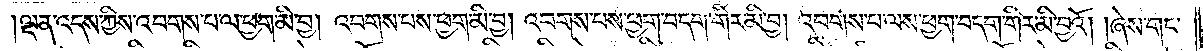ལྡན་འདས་ཀྱིས་འབགས་པ་ལ་ཕྱག་མི་བྱ། འབགས་པས་ཕྱག་མི་བྱ། འབགས་པས་ཕྱག་བདག་གིར་མི་བྱ། འབགས་པ་ལས་ཕྱག་བདག་གིར་མི་བྱའོ། །ཞེས་གང་
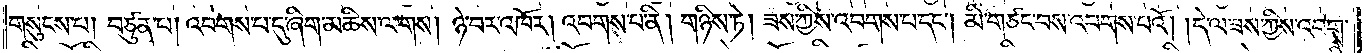གསུངས་པ། བཙུན་པ། འབགས་པ་དུ་ཞིག་མཆིས་ལགས། ཉེ་བར་འཁོར། འབགས་པ་ནི། གཉིས་ཏེ། ཟས་ཀྱིས་འབགས་པ་དང༌། མི་གཙང་བས་འཕགས་པའོ། །དེ་ལ་ཟས་ཀྱིས་འབགས་
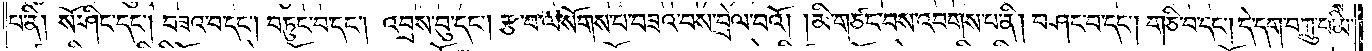པ་ནི། སོ་ཤིང་དང༌། བཟའ་བ་དང༌། བཏུང་བ་དང༌། འབྲས་བུ་དང༌། རྩབ་ལ་སོགས་པ་བཟའ་བས་བྲེལ་བའོ། །མི་གཙང་བས་འབགས་པ་ནི། བཤང་བ་དང༌། གཅི་བ་དང༌། དེ་དག་བཀྲུ་བ་མི་
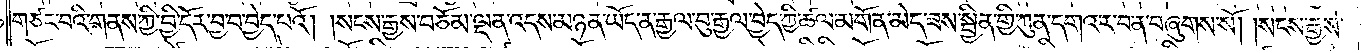གཙང་བའི་གནས་ཀྱི་བྱི་དོར་བྱ་བ་བྱེད་པའོ། །སངས་རྒྱས་བཅོམ་ལྡན་འདས་མཉན་ཡོད་ན་རྒྱལ་བུ་རྒྱལ་བྱེད་ཀྱི་ཚལ་མགོན་མེད་ཟས་སྦྱིན་གྱི་ཀུན་དགའ་ར་བ་ན་བཞུགས་སོ། །སངས་རྒྱས་
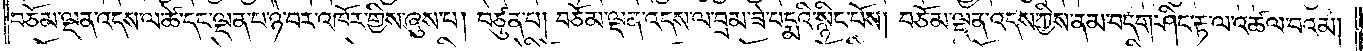བཅོམ་ལྡན་འདས་ལ་ཚེ་དང་ལྡན་པ་ཉེ་བར་འཁོར་གྱིས་ཞུས་པ། བཙུན་པ། བཅོམ་ལྡན་འདས་ལ་བྲམ་ཟེ་པདྨའི་སྙིང་པོས། བཅོམ་ལྡན་འདས་ཀྱིས་ནམ་བདག་ཤིང་རྟ་ལ་འཚལ་བའམ།
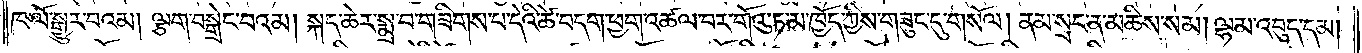ཁ་ལོ་སྒྱུར་བའམ། ལྕག་བསྒྲེང་བའམ། སྐད་ཆེར་སྨྲ་བ་གཟིགས་པ་དེའི་ཚེ་བདག་ཕྱག་འཚལ་བར་གོའུ་ཏ་མ་ཁྱོད་ཀྱིས་གཟུང་དུ་གསོལ། ནམ་སྲང་ན་མཆིས་སམ། ལྷམ་འབུད་དམ།
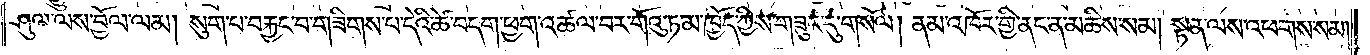ཤུལ་ལས་བྱོལ་ལམ། སུག་པ་བརྐྱང་བ་གཟིགས་པ་དེའི་ཚེ་བདག་ཕྱག་འཚལ་བར་གོའུ་ཏ་མ་ཁྱོད་ཀྱིས་གཟུང་དུ་གསོལ། ནམ་འཁོར་གྱི་ནང་ན་མཆིས་སམ། སྟན་ལས་འཕགས་སམ།
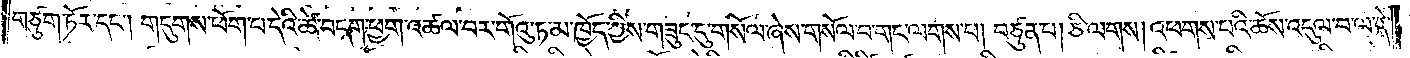གཙུག་ཏོར་དང༌། གདུགས་ཕོག་པ་དེའི་ཆེ་བདག་ཕྱག་འཚལ་བར་གོའུ་ཏ་མ་ཁྱོད་ཀྱིས་གཟུང་དུ་གསོལ་ཞེས་གསོལ་བ་གང་ལགས་པ། བཙུན་པ། ཅི་ལགས། འཕགས་པའི་ཆོས་འདུལ་བ་ལ་དེ་
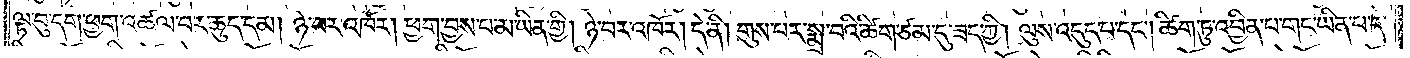ལྟ་བུ་དག་ཕྱག་འཚལ་བར་ཆུད་དམ། ཉེ་བར་འཁོར། ཕྱག་བྱས་པ་མ་ཡིན་གྱི། ཉེ་བར་འཁོར། དེ་ནི། གུས་པར་སྨྲ་བའི་ཚིག་ཙམ་དུ་ཟད་ཀྱི། ལུས་འདུད་པ་དང༌། ཚིག་ཏུ་འབྱིན་པ་གང་ཡིན་པ་དེ་
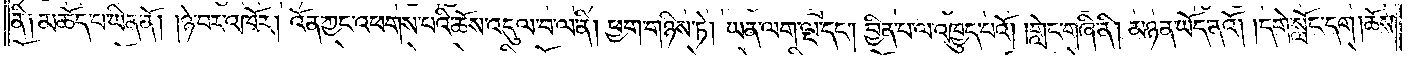ནི། མཆོད་པ་ཡིན་ནོ། །ཉེ་བར་འཁོར། འོན་ཀྱང་འཕགས་པའི་ཆོས་འདུལ་བ་ལ་ནི། ཕྱག་གཉིས་ཏེ། ཡན་ལག་ལྔ་དང༌། བྱིན་པ་ལ་འཁྱུད་པའོ། །གླེང་གཞི་ནི། མཉན་ཡོད་ནའོ། །དགེ་སློང་དག །ཆོས་
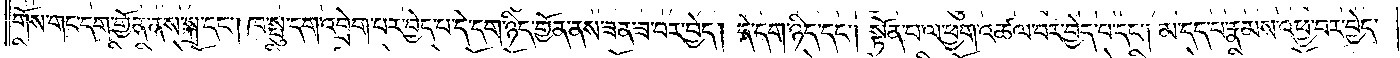གོས་གང་དག་གྱོན་ནས་སྐྲ་དང༌། ཁ་སྤུ་དག་འབྲེག་པར་བྱེད་པ་དེ་དག་ཉིད་གྱོན་ནས་ཟན་ཟ་བར་བྱེད། དེ་དག་ཉིད་དང༌། སྟོན་པ་ལ་ཕྱག་འཚལ་བར་བྱེད་པ་དང༌། མ་དད་པ་རྣམས་འཕྱ་བར་བྱེད་
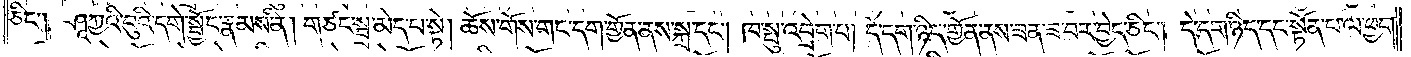ཅིང༌། ཤཱཀྱའི་བུའི་དགེ་སྦྱོང་རྣམས་ནི། གཙང་སྦྲ་མེད་པ་སྟེ། ཆོས་གོས་གང་དག་གྱོན་ནས་སྐྲ་དང༌། ཁ་སྤུ་འབྲེག་པ། དེ་དག་ཉིད་གྱོན་ནས་ཟན་ཟ་བར་བྱེད་ཅིང༌། དེ་དག་ཉིད་དང་སྟོན་པ་ལ་ཕྱག་
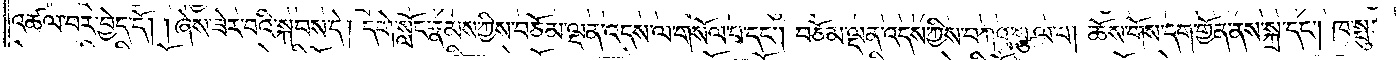འཚལ་བར་བྱེད་དོ། །ཞེས་ཟེར་བའི་སྐབས་དེ། དགེ་སློང་རྣམས་ཀྱིས་བཅོམ་ལྡན་འདས་ལ་གསོལ་བ་དང༌། བཅོམ་ལྡན་འདས་ཀྱིས་བཀའ་སྩལ་པ། ཆོས་གོས་དག་གྱོན་ནས་སྐྲ་དང༌། ཁ་སྤུ་
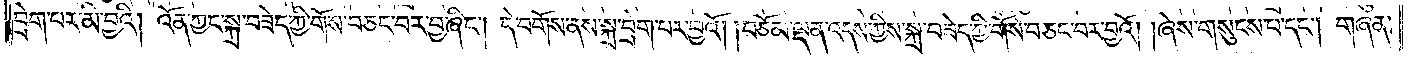བྲེག་པར་མི་བྱའི། འོན་ཀྱང་སྐྲ་བཟེད་ཀྱི་གོས་བཅང་བར་བྱ་ཞིང༌། དེ་བགོས་ནས་སྐྲ་བྲེག་པར་བྱའོ། །བཅོམ་ལྡན་འདས་ཀྱིས་སྐྲ་བཟེད་ཀྱི་གོས་བཅང་བར་བྱའོ། །ཞེས་གསུངས་པ་དང༌། གཞན་
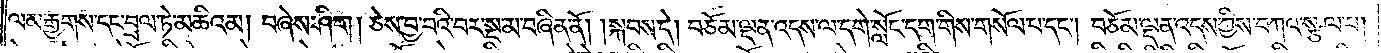ལམ་རྒྱགས་དང་བྲལ་ཏེ་མཆིའམ། བཞེས་ཤིག །ཅེས་བྱ་བའི་བར་སྔ་མ་བཞིན་ནོ། །སྐབས་དེ། བཅོམ་ལྡན་འདས་ལ་དགེ་སློང་དག་གིས་གསོལ་པ་དང༌། བཅོམ་ལྡན་འདས་ཀྱིས་བཀའ་སྩལ་པ།
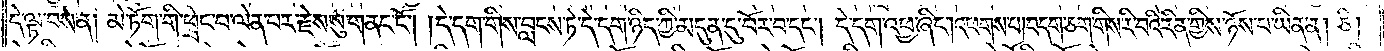དེ་ལྟ་བས་ན། མེ་ཏོག་གི་ཕྲེང་བ་ལེན་པར་རྗེས་སུ་གནང་ངོ༌། །དེ་དག་གིས་བླངས་ཏེ་དེ་དག་ཉིད་ཀྱི་མདུན་དུ་བོར་བ་དང༌། དེ་དག་འཕྱ་ཞིང༌། འཕགས་པ། བདག་ཅག་གིས་རི་བའི་རིན་གྱིས་ཉོས་པ་ཡིན་ན། ཅི།
